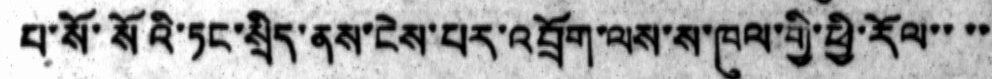པ་སོ་སོའི་ཏང་སྲིད་ནས་ངེས་པར་འབྲོག་ལས་ས་ཁུལ་གྱི་ཕྱི་རོལ་་་་
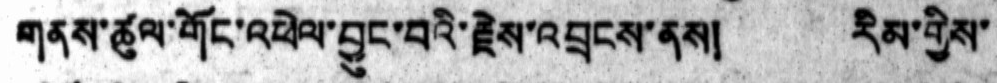གནས་ཚུལ་གོང་འཕེལ་བྱུང་བའི་རྗེས་འབྲངས་ནས། རིམ་གྱིས་
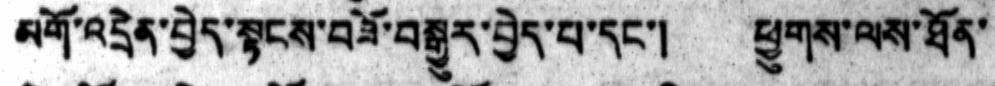མགོ་འདྲེན་བྱེད་སྟངས་བཟོ་བསྒྱུར་བྱེད་པ་དང་། ཕྱུགས་ལས་ཐོན་
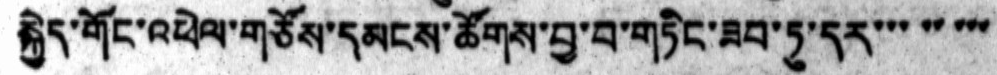སྐྱེད་གོང་འཕེལ་གཙོས་དམངས་ཚོགས་བྱ་བ་གཏིང་ཟབ་ཏུ་དར་་་་་་་་
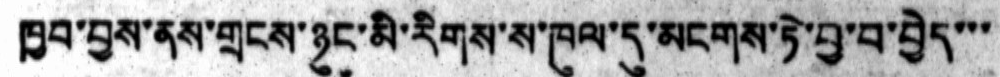ཁྱབ་བྱས་ནས་གྲངས་ཉུང་མི་རིགས་ས་ཁུལ་དུ་མངགས་ཏེ་བྱ་བ་བྱེད་་་
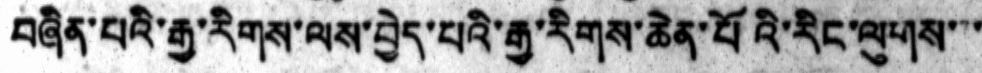བཞིན་པའི་རྒྱ་རིགས་ལས་བྱེད་པའི་རྒྱ་རིགས་ཆེན་པོའི་རིང་ལུགས་་་
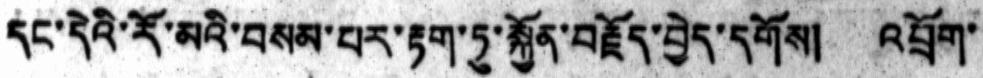དང་དེའི་རོ་མའི་བསམ་པར་རྟག་ཏུ་སྐྱོན་བརྗོད་བྱེད་དགོས། འབྲོག་
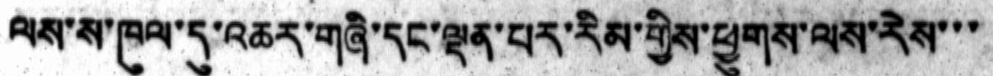ལས་ས་ཁུལ་དུ་འཆར་གཞི་དང་ལྡན་པར་རིམ་གྱིས་ཕྱུགས་ལས་རེས་་་
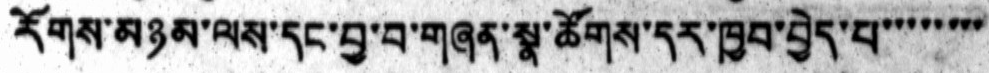རོགས་མཉམ་ལས་དང་བྱ་བ་གཞན་སྣ་ཚོགས་དར་ཁྱབ་བྱེད་པ་་་་་་་་
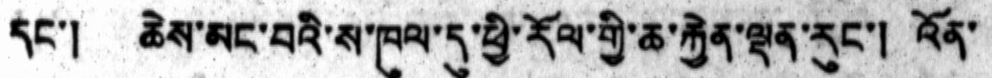དང་། ཆེས་མང་བའི་ས་ཁུལ་དུ་ཕྱི་རོལ་གྱི་ཆ་རྐྱེན་ལྡན་རུང་། འོན་
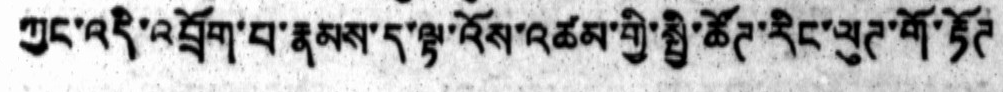ཀྱང་འདི་འབྲོག་པ་རྣམས་ད་ལྟ་འོས་འཚམ་གྱི་སྤྱི་ཚོཊ་རིང་ལུཊ་གོ་རྟོཊ
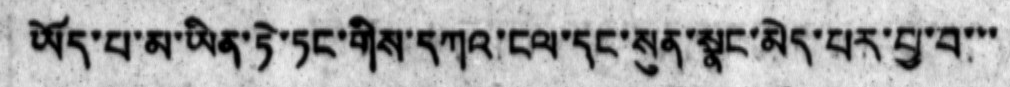ཡོད་པ་མ་ཡིན་ཏེ་ཏང་གིས་དཀའ་ངལ་དང་སུན་སྣང་མེད་པར་བྱ་བ་་་
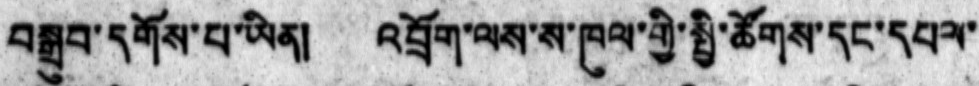བསྒྲུབ་དགོས་པ་ཡིན།  འབྲོག་ལས་ས་ཁུལ་གྱི་སྤྱི་ཚོགས་དང་དཔལ་
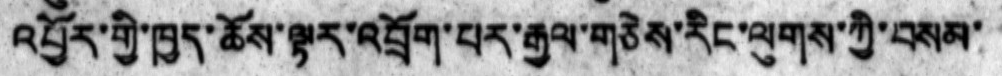འབྱོར་གྱི་ཁྱད་ཆོས་ལྟར་འབྲོག་པར་རྒྱལ་གཅེས་རིང་ལུགས་ཀྱི་བསམ་
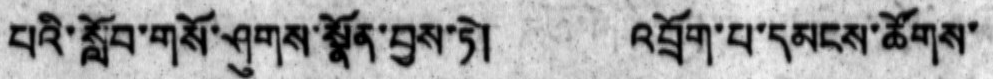པའི་སློབ་གསོ་ཤུགས་སྣོན་བྱས་ཏེ། འབྲོག་པ་དམངས་ཚོགས་
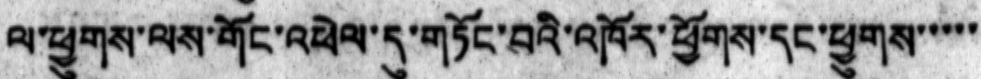ལ་ཕྱུགས་ལས་གོང་འཕེལ་དུ་གཏོང་བའི་འཁོར་ཕྱོགས་དང་ཕྱུགས་་་་་
